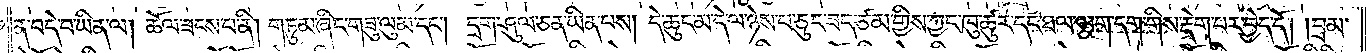ན་བདེ་བ་ཡིན་ལ། ཆོལ་ཟངས་པ་ནི། གཏུམ་ཞིང་གཟུ་ལུམ་དང༌། དྲག་ཤུལ་ཅན་ཡིན་པས། དེ་ཆུང་མ་དེ་ལ་ཉེས་པ་ཅུང་ཟད་ཙམ་གྱིས་ཀྱང་ཁུ་ཚུར་དང་ཐལ་ལྕག་དག་གིས་རྡེག་པར་བྱེད་དོ། །བྲམ་
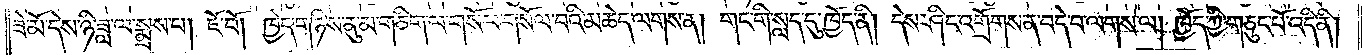ཟེ་མོ་དེས་ཉི་ཟླ་ལ་སྨྲས་པ། ཇོ་བོ། ཁྱེད་གཉིས་ནུ་མ་གཅིག་ལ་གསོལ་གསོལ་བའི་མཆེད་ལགས་ན། གང་གི་སླད་དུ་ཁྱོད་ནི། དེས་ཤིང་འགྲོགས་ན་བདེ་བ་ལགས་ལ། ཁྱོད་ཀྱི་གཅུང་པོ་འདི་ནི།
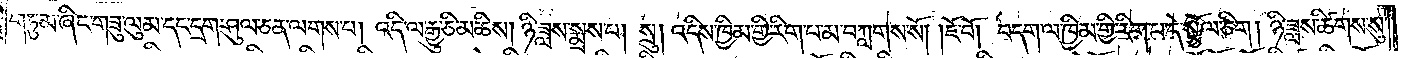གཏུམ་ཞིང་གཟུ་ལུམ་དང་དྲག་ཤུལ་ཅན་ལགས་པ། འདི་ལ་རྒྱུ་ཅི་མཆིས། ཉི་ཟླས་སྨྲས་པ། སྲུ། འདིས་ཁྱིམ་གྱི་རིག་པ་མ་བཀླགས་སོ། །ཇོ་བོ། བདག་ལ་ཁྱིམ་གྱི་རིག་པ་དེ་སྩོལ་ཅིག། ཉི་ཟླས་ཚིགས་སུ་
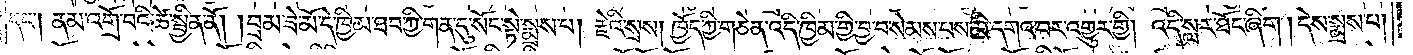དང༌། ནམ་འགྲོ་བའི་ཚེ་སྦྱིན་ནོ། །བྲམ་ཟེ་མོ་དེ་ཁྱིམ་ཐབ་ཀྱི་གན་དུ་སོང་སྟེ་སྨྲས་པ། རྗེའི་སྲས། ཁྱོད་ཀྱི་གཅེན་འདི་ཁྱིམ་གྱི་བྱ་བ་སེམས་པས་མི་དགའ་བར་འགྱུར་གྱི། འདི་སླར་ཐོང་ཞིག །དེས་སྨྲས་པ།
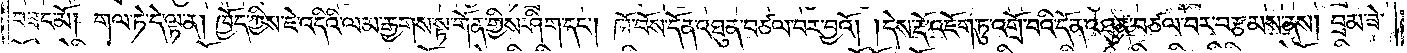བཟང་མོ། གལ་ཏེ་དེ་ལྟ་ན། ཁྱོད་ཀྱིས་ཇེ་འདིའི་ལམ་རྒྱགས་སྟ་གོན་གྱིས་ཤིག་དང༌། ཁོ་བོས་དོན་འཐུན་བཙལ་བར་བྱའོ། །དེས་རྡོ་འཇོག་ཏུ་འགྲོ་བའི་དོན་འཐུན་བཙལ་བར་བརྩམས་ནས། བྲམ་ཟེ་
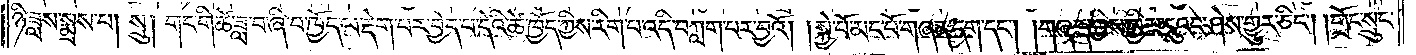ཉི་ཟླས་སྨྲས་པ། སྲུ། གང་གི་ཚེ་ཟླ་བ་ཞི་པ་ཁྱོད་ལ་རྡེག་པར་བྱེད་པ་དེའི་ཚེ་ཁྱོད་ཀྱིས་རིག་པ་འདི་བཀླག་པར་བྱའོ། །སྐྱེ་བོ་མང་པོ་གཞན་དག་དང༌། །གཞན་གྱིས་ཁྱིམ་དུའང་ཤེས་གྱུར་ཅིང༌། །གྲོང་སྲུང་
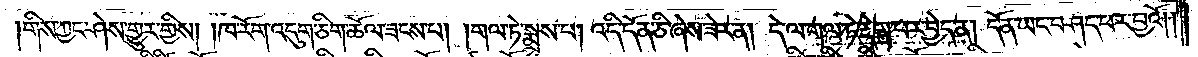གིས་ཀྱང་ཤེས་གྱུར་གྱིས། །ཁ་རོག་འདུག་ཅིག་ཆོལ་ཟངས་པ། །གལ་ཏེ་སྨྲས་པ། འདི་དོན་ཅི་ཞེས་ཟེར་ན། དེ་ལ་གལ་ཏེ་རྡེག་པར་བྱེད་ན། དོན་ཡང་བཤད་པར་བྱའོ། །
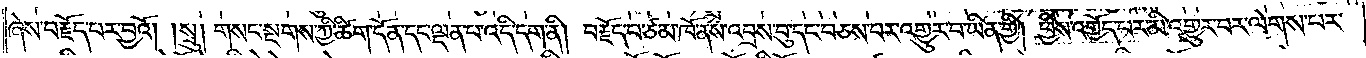ཞེས་བརྗོད་པར་བྱའོ། །སྲུ། གསང་སྔགས་ཀྱི་ཚིག་དོན་དང་ལྡན་པ་འདི་དག་ནི། བརྗོད་པ་ཙམ་ཁོ་ནས་འབྲས་བུ་དང་བཅས་པར་འགྱུར་བ་ཡིན་གྱི། ཕྱིས་འགྱོད་པར་མི་འགྱུར་བར་ལེགས་པར་
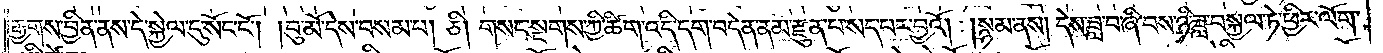རྒྱགས་བྱིན་ནས་དེ་སྐྱེལ་དུ་སོང་ངོ༌། །བུ་མོ་དེས་བསམ་པ། ཅི། གསང་སྔགས་ཀྱི་ཚིག་འདི་དག་བདེན་ནམ་རྫུན་པ་སད་པར་བྱའོ། །སྙམ་ནས། དེས་ཟླ་བ་ཞི་བས་ཉི་ཟླ་བསྐྱལ་ཏེ་ཕྱིར་ལོག་
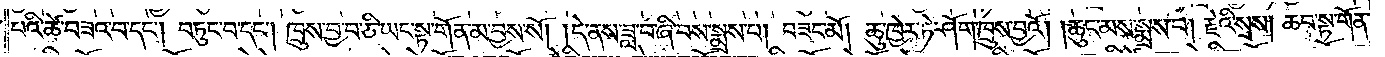པའི་ཚེ་བཟའ་བ་དང༌། བཏུང་བ་དང༌། ཁྲུས་བྱ་བ་ཅི་ཡང་སྟ་གོན་མ་བྱས་སོ། ། དེ་ནས་ཟླ་བཞི་པས་སྨྲས་པ། བཟང་མོ། ཆུ་ཁྱེར་ཏེ་ཤོག་ཁྲུས་བྱའོ། །ཆུང་མས་སྨྲས་པ། རྗེའི་སྲས། ཆབ་སྟ་གོན་
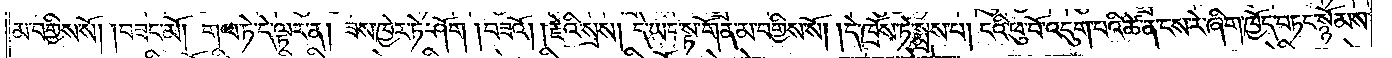མ་བགྱིས་སོ། །བཟང་མོ། གལ་ཏེ་དེ་ལྟར་ན། ཟས་ཁྱེར་ཏེ་ཤོག །བཟའོ། །རྗེའི་སྲས། དེ་ཡང་སྟ་གོན་མ་བགྱིས་སོ། །དེ་ཁྲོས་ཏེ་སྨྲས་པ། ངའི་ཕུ་བོ་འདུག་པའི་ཚེ་ན་ངས་རེ་ཞིག་ཁྱོད་བཏང་སྙོམས་
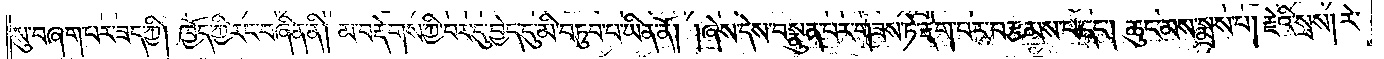སུ་བཞག་པར་ཟད་ཀྱི། ཁྱོད་ཀྱི་རང་བཞིན་ནི། མ་བརྡེགས་ཀྱི་བར་དུ་བྱེད་དུ་མི་བཏུབ་པ་ཡིན་ནོ། །ཞེས་དེས་བསྣུན་པར་གཟས་ཏེ་རྡེག་པར་བརྩམས་པ་དང༌། ཆུང་མས་སྨྲས་པ། རྗེའི་སྲས། རེ་
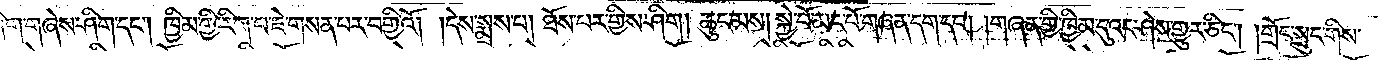ཞིག་གཞེས་ཤིག་དང༌། ཁྱིམ་གྱི་རིག་པ་ཇེ་གསན་པར་བགྱིའོ། །དེས་སྨྲས་པ། ཐོས་པར་གྱིས་ཤིག། ཆུང་མས། སྐྱེ་བོ་མང་པོ་གཞན་དག་དང༌། །གཞན་གྱི་ཁྱིམ་དུའང་ཤེས་གྱུར་ཅིང༌། །གྲོང་སྲུང་གིས་
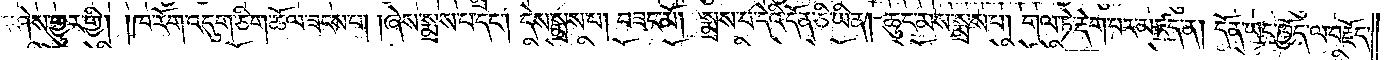ཀྱང་ཤེས་གྱུར་གྱི། །ཁ་རོག་འདུག་ཅིག་ཆོལ་ཟངས་པ། །ཞེས་སྨྲས་པ་དང༌། དེས་སྨྲས་པ། བཟང་མོ། སྨྲས་པ་དེའི་དོན་ཅི་ཡིན། ཆུང་མས་སྨྲས་པ། གལ་ཏེ་རྡེག་པར་མཛད་ན། དོན་ཡང་ཁྱོད་ལ་བརྗོད་
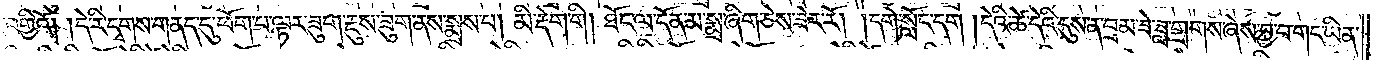པར་བགྱིའོ། །དེ་རི་དྭགས་གནད་དུ་ཕོག་པ་ལྟར་ཟུག་རྔུས་ཟུག་ནས་སྨྲས་པ། མི་རྡེག་གི། ཐོང་ལ་དོན་མ་སྨྲ་ཞིག་ཅེས་ཟེར་རོ། །དགེ་སློང་དག །དེའི་ཚེ་དེའི་དུས་ན་བྲམ་ཟེ་ཟླ་གྲགས་ཞེས་བྱ་བ་གང་ཡིན་
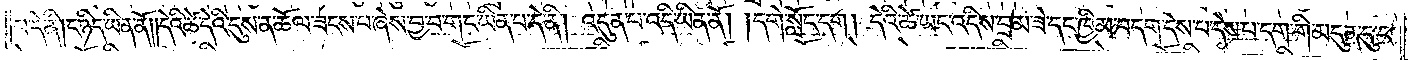པ་དེ་ནི། ང་ཉིད་ཡིན་ནོ༎དེའི་ཚེ་དེའི་དུས་ན་ཆོལ་ཟངས་པ་ཞེས་བྱ་བ་གང་ཡིན་པ་དེ་ནི། འདུན་པ་འདི་ཡིན་ནོ། །དགེ་སློང་དག། དེའི་ཚེ་ཡང་འདིས་བྲམ་ཟེ་དང་ཁྱིམ་བདག་དེས་པ་དེས་པ་དག་གི་མདུན་དུ་ང་
